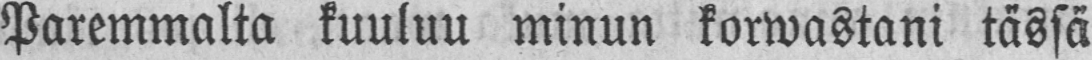Paremmalta kuuluu minun korwastani tässä
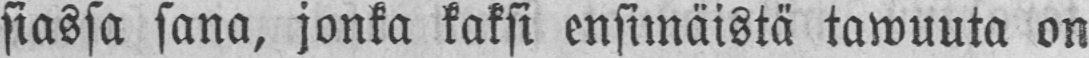siassa sana, jonka kaksi ensimäistä tawuuta on
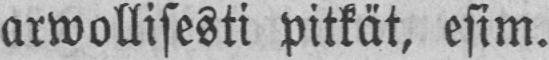arwollisesti pitkät, esim.
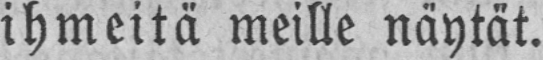ihmeitä meille näytät.
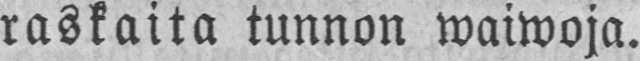raskaita tunnon waiwoja.
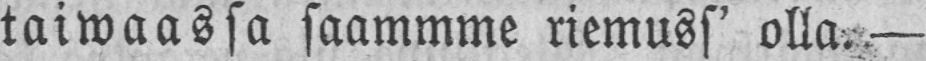taiwaassa saammme riemuss' olla.—
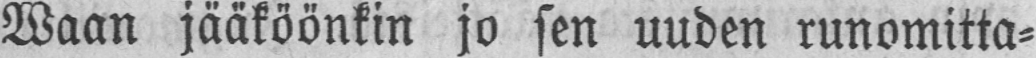Waan jääköönkin jo sen uuden runomitta-
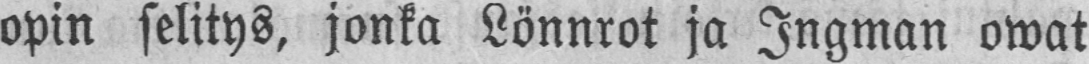opin selitys, jonka Lönnrot ja Ingman owat
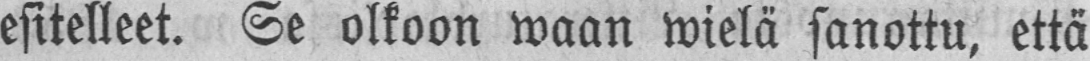esitelleet. Se olkoon waan wielä sanottu, että
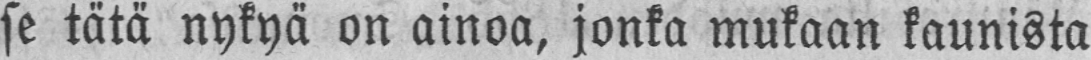se tätä nykyä on ainoa, jonka mukaan kaunista
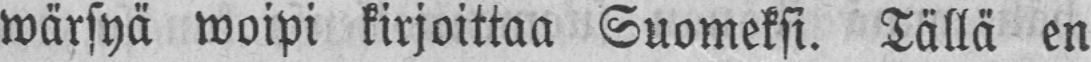wärsyä woipi kirjoittaa Suomeksi. Tällä en
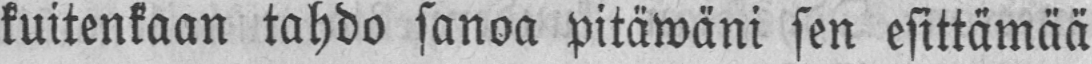kuitenkaan tahdo sanoa pitäwäni sen esittämää
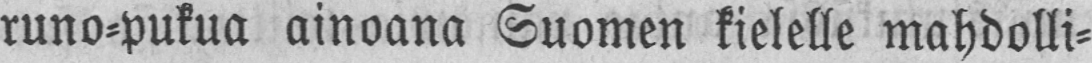runo-pukua ainoana Suomen kielelle mahdolli-
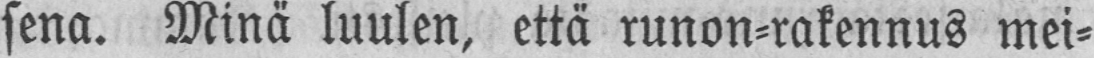sena. Minä luulen, että runon-rakennus mei-
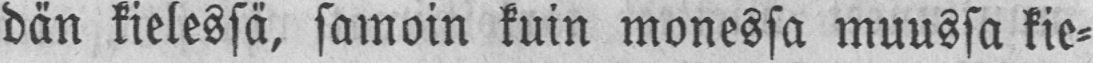dän kielessä, samoin kuin monessa muussa kie-
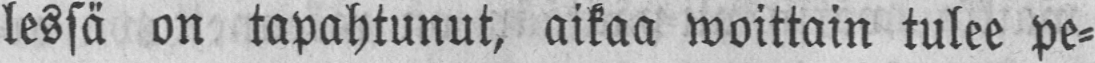lessä on tapahtunut, aikaa woittain tulee pe-
